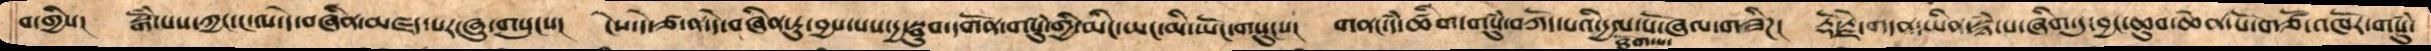བ་བགྱི། སྒོཾ་པས་ཀྱང་ང་ལ་དེ་བཞིན་མཛད་པར་ཞུ་གསུངས། ངེས་དེ་ཙ་ན་དེ་བཞིན་ཏུ་བྱས་པས་དྱ་སྣུབ་དགོན་གསུཾ་གྱི་མིང་ཡང་མི་ཡོང་གསུངས། གནང་དཾ་ཚིག་གསུཾ་བཀོད་པའི་དྱལ་པོ་ཞལ་གཟིཌ། རྡོ་རྗེ་གདན་ཡིན་སྙཾ་པ་ཞིག་ཏུ་བྱང་ཆུབ་ཆེན་པོ་གཙོ་འཁོར་གསུཾ་
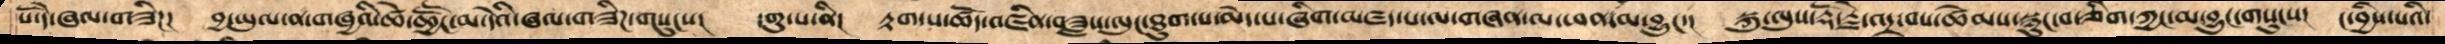པ་དེ་ཞལ་གཟིཌ།   བྱ་ཡུལ་ན་གཞྱའི་ཚེ་ཆངྱཽ་མ་དེའི་ཞལ་གཟིཌ་གསུངས།   དགུ་པ་ནི།  རྟག་པ་ཚོད་འཛིན་བཟླས་ལུང་ཐུག་པ་མེད་པ་ཞིག་མཛད་པ་ལ་གཞན་ལ་ཕན་མ་བྱུང་།   སྐུ་ལུས་རྡོ་རྗེ་འདྲ་བས་ཚེམས་སྙུང་བ་ཅིག་ཀྱང་མ་བྱུང་གསུངས།   ང་བྱིས་པའི་
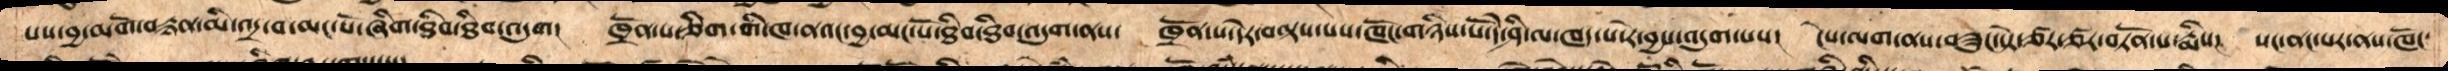པས་བྱ་མགོ་བརྙན་མི་འདྲ་བ་མང་པོ་ཞིག་ཐིབ་ཐིབ་འདུག།   ཁྲོན་པ་ཅིག་གི་ཁ་ནའང་བྱ་མང་པོ་ཐིབ་ཐིབ་འདུག་ནས་   ཁྲོན་པ་དེར་བལྟས་པས་ཁོང་གཉིས་པོ་དེ་ཤི་ལ་ཁད་པ་རེ་བྱས་འདུག་པས།   ངེས་ལག་ནས་བཟུང་སྟེ་ཙར་ཙར་བཏོན་པ་རྨིས།  སང་ནང་པར་ནས་ཁོང་
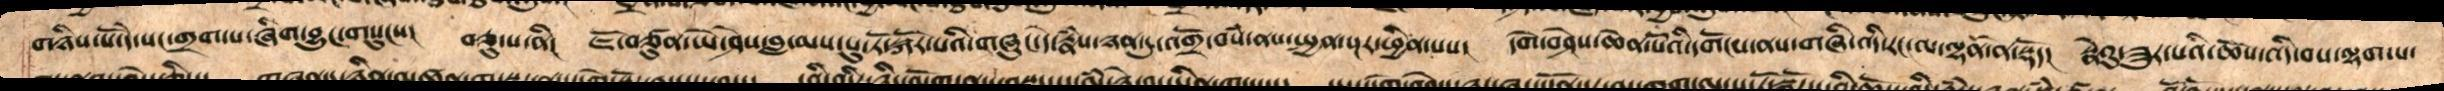གཉིས་པོ་དེ་སང་གྲག་པ་ཞིག་བྱུང་གསུངས།  བཅུ་པ་ནི། ཇོ་བཙུན་ཡེ་ཤེས་བླ་མས་པུ་ཏོ་སྐོར་པའི་གཞུང་དེ་རྣཾས་ཉན་དུ་འགྲོ་བསཾ་ནས་སྤྱན་སྔར་ཕྱིན་པས། དགེ་བཤེས་ཆེན་པོའི་དགོངས་ནས་གཞི་འདི་རང་ལ་ལྷནོ་ན་སྡོད། སྣེའུ་ཟུར་པའི་ཆོས་འདི་བས་ལྷག་པ་
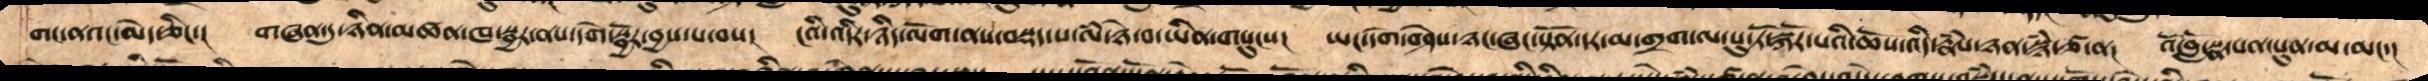གང་ནའང་མེད་ཅིང་། གཞན་དུ་ཉིན་མཚན་ཁ་སྦྱར་ནས་དགེ་སྦྱོར་བྱས་པ་བས།   ངའི་འདིར་ཉིད་ལོག་ནས་བསྡད་པ་ལཾ་ཉེ་བ་ཡིན་གསུངས།   ཡང་དགེ་བཤེས་ཉང་ཞང་སྟོན་དར་མ་གྲག་ལ་པུ་ཏོ་སྐོར་པའི་ཆོས་འདི་རྣཾས་ཉན་སྙཾ་ཙ་ན།   འོ་བློ་སྣ་པན་སུན་མ་མང་།
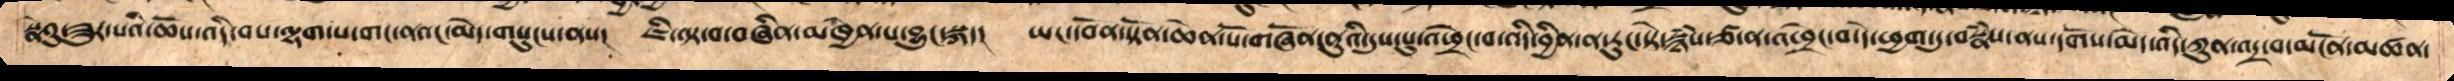སྣེའུ་ཟུར་པའི་ཆོས་འདི་བས་ལྷག་པ་གང་ནའང་མེད་གསུངས་ནས།   ཇི་ལྟ་བ་བཞིན་མཁྱེན་པ་བྱུང་སྐད།   ཡང་དབོན་སྟོན་ཆེན་པོ་གཞོན་ནུས་དུས་སུ་འཕྲེང་བ་འདི་བྱིན་ན་རུང་དེར་སྙཾ་ཙ་ན་འཕྲེང་བ་དེ་ཕྱག་དུ་བསྣཾས་ནས་དགོས་མེད་འདི་ཀུན་འདྲ་བ་མངོན་མཚན་
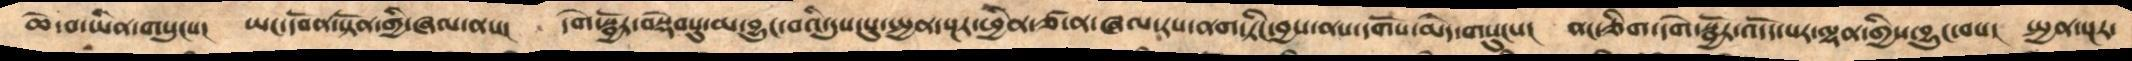ཆེ་བ་ཡིན་གསུངས།   ཡང་དབོན་སྟོན་གྱི་ཞལ་ནས།   དགེ་སྦྱོར་བསྡེབསུ་མ་བྱུང་བའི་དུས་སུ་སྤྱན་སྔར་ཕྱིན་ཙ་ན་ཞལ་རས་ནག་རིང་བྱས་ནས་དགོས་མེད་གསུངས།   ནང་ཅིག་དགེ་སྦྱོར་འདོད་པར་ལྷན་གྱིས་བྱུང་བས།  སྤྱན་སྔར་
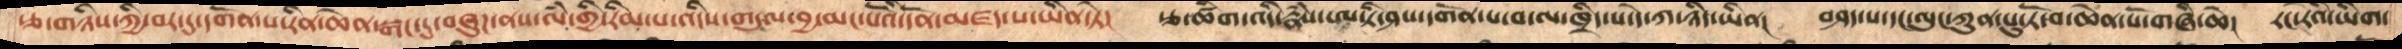རྩ་གཉིས་ཀྱི་བར་དུ་དགོན་པ་རིན་ཆེན་སྒང་དུ་བཞུཌ་ནས་ལཾ་གྱི་རིམ་པ་འདིས་གདུལ་བྱ་མང་པོའི་དོན་མཛད་པ་ཡིན་ཏེ།   རྩ་ཚིག་འདི་རྣཾས་ཨ་ཏི་ཤས་དགོན་པ་བ་ལ་ཁྲིད་པ་དེ་ཀ་ཉིད་ཡིན།   བཤད་པ་དང་ལུང་ཀུན་པུ་ཏོ་བ་ཆེན་པོ་གཞི་ཆེ།  རང་རེའི་ཡིག་
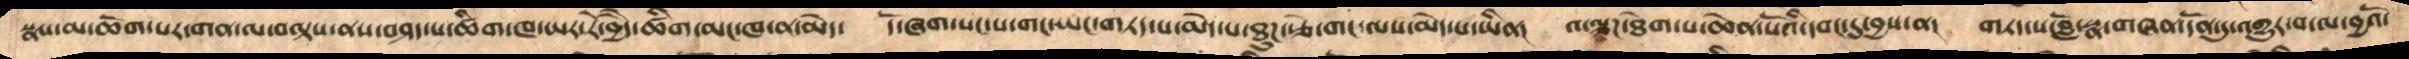སྣས་མ་ཆོག་པར་གན་ལ་བལྟས་ནས་བཤད་པ་ཚིག་ཁ་ཡར་རེ་བྱཻད་ཚིག་མང་ཁ་ན་མེད།  དོ་ཞག་པང་པ་གང་ཡང་གཏད་པ་མེད་པ་ཐུཌ་རྩེ་གང་ལས་མེད་པ་ཡིན།  འ་ལྕཌ་ཐེག་པ་ཆེན་པོའི་དབང་དུ་བྱས་ན།  གཏད་ས་བློ་སྣ་གཞན་དོན་དུ་འགྱུར་བ་ལ་བྱའོ་
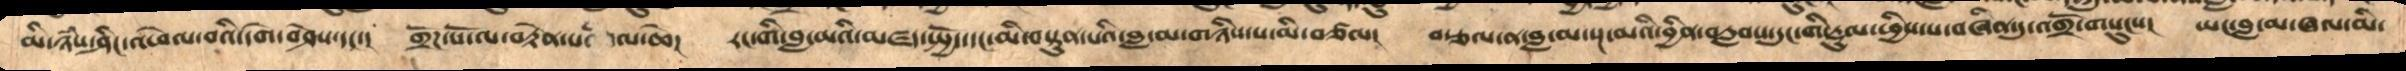མི་ཉཾས་ཤིང་འཕེལ་བའི་དགེ་བཤེས་དང་།   གྲོཌ་པོ་ལ་བརྟེན་པ་གལ་ཆེ།   རང་གི་བླ་མའི་མཛད་སྤྱོད་དང་མི་མསྟུན་པའི་བླ་མ་གཉིས་པ་མི་བཙལ།   བརྩལ་ན་བླ་མ་སྔ་མའི་བྱིན་བརླབས་དུང་གི་རྡུལ་ཕྱིས་པ་བཞིན་དུ་འགྲོ་གསུངས།   ཡང་བླ་མ་ཞལ་མི་
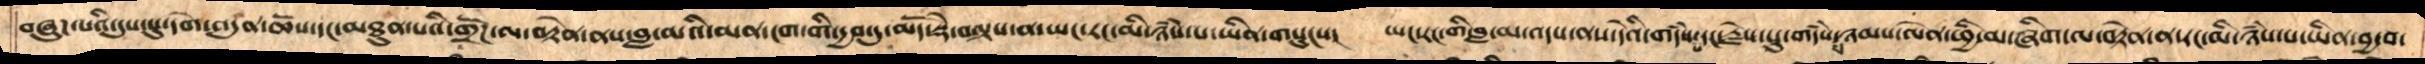བཞུཌ་པའི་དུས་སུ་དགེ་འདུན་ཆོས་དང་མཐུན་པའི་གྲོཌ་ལ་བརྟེན་ནས་བླ་མའི་མན་ངག་གི་དྱབ་དུ་མདོ་སྡེ་བལྟས་ན་ཡང་མི་ཉཾས་པ་ཡིན་གསུངས།   ཡང་རང་གི་བླ་མ་འདས་ནས་དེའི་གདཾས་པ་དང་རྗེས་སུ་གདཾས་པ་ཉམས་་ལེན་ཕྱི་མ་ཞིག་ལ་བརྟེན་ན་རང་མི་ཉཾས་པ་ཡིན་བྱ་བ་
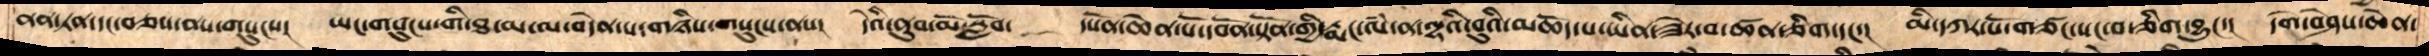ནན་ཏན་དང་བཅས་ནཔ་གསུངས།   ཡང་གསུངས་གི་ཐ་མ་ལ་བདེན་པ་གཉིས་གསུངས་ནས།    དེའི་ནུབ་མོ་སློབ་    དཔོན་ཆེན་པོ་དབོན་སྟོན་གྱི་རྨང་ལཾ་ན་ལྷའི་བུའི་མཆོད་པ་ཡིན་ཟེར་བ་ཚན་ཅིག་དང་།    མི་དཀར་པོ་གཙང་སང་བ་ཅིག་བྱུང་།   དགེ་བཤེས་ཆེན་
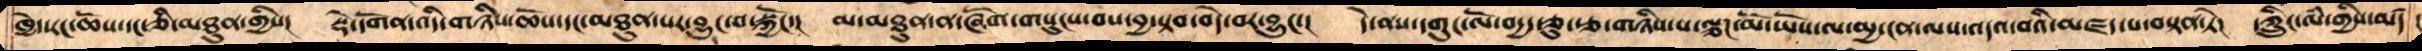ཁྱོད་རང་ཆོས་དང་ཅི་མཐུན་གྱིས།   སྡེ་དགོན་འདི་གཉིས་ཆོས་དང་མཐུན་པར་བྱུང་བ་སྐྱོང་།   མ་མཐུན་ན་ཞོག་གསུངས་བས་བྱ་སྟབ་བདེ་བར་བྱུང་།   དེ་ནས་དགུང་ལོ་བདྱད་ཅུ་རྩ་གཉིས་པ་ལྕཌ་མོ་ཡོས་ལ་མྱ་ངན་ལས་འདའ་བའི་མཛད་པ་བསྟན་ཏེ།   དཀྲིུང་ལཾ་གྱིས་མཛད
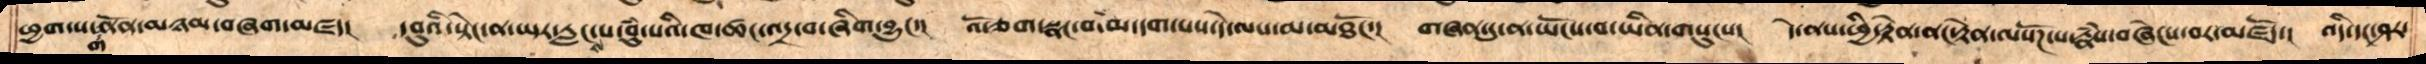ཕྱག་ས་གནོན་མཉམ་བཞག་མཛད། དབུའི་སྟེང་ན་ཡར་རླངས་པ་བུཾ་པའི་ཁ་ཚང་འདྲ་བ་ཞིག་བྱུང་། འོ་ཅག་སྣང་བ་མ་དག་པས་དེ་ལས་མ་མཐོང་། གཞན་དུ་ན་ཡོངས་བ་ཡིན་གསུངས། དེ་ནས་ཕྱི་རྟེན་ནང་རྟེན་ལསོཌ་པ་རྣཾས་བཞེངས་པར་མཛོ། འདི་དང་ཤར་
